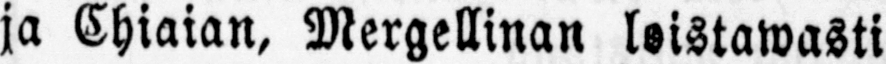ja Chiaian, Mergellinan loistawasti
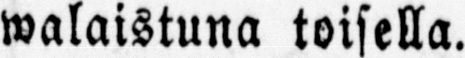walaistuna toisella.
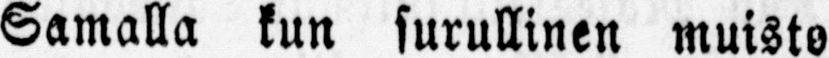Samalla kun surullinen muisto
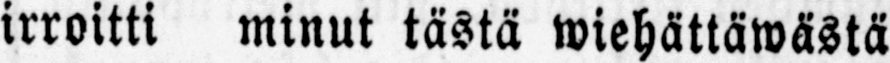irroitti minut tästä wiehättäwästä
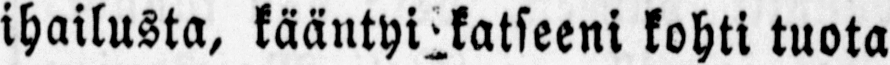ihailusta, kohti tuota
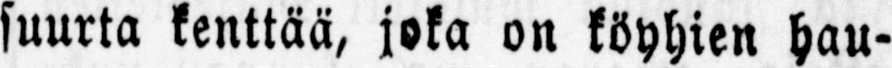suurta kenttää, joka on köyhien hau-
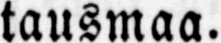tausmaa.
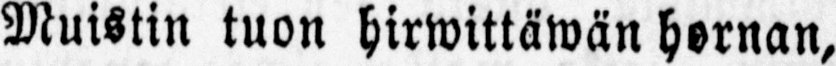Muistin tuon hirwittäwän hornan,
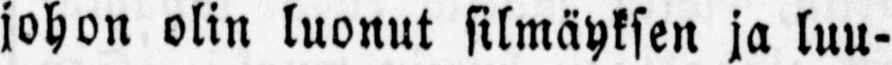johon olin luonut silmäyksen ja luu-
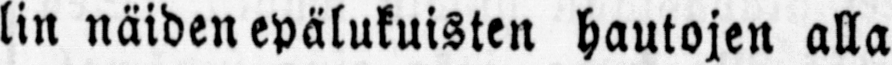lin näiden epälukuisten hautojen alla
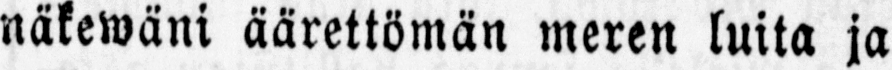näkewäni äärettömän meren luita ja
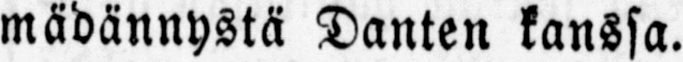mädännystä Danten kanssa.
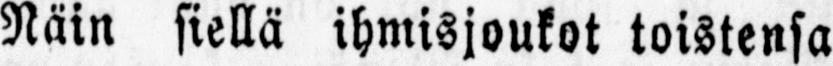Näin siellä ihmisjoukot toistensa
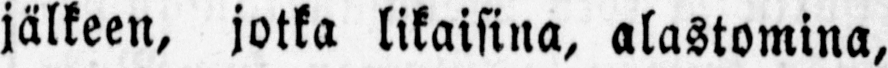jälkeen, jotka likaisina, alastomina,
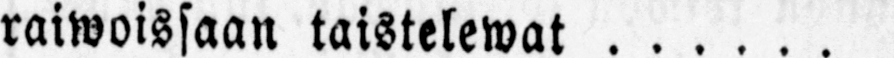raiwoissaan taistelewat . . . . . .
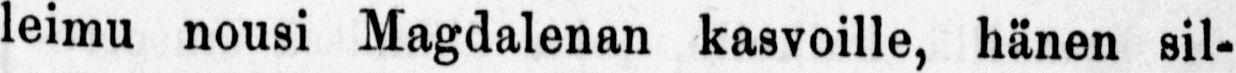leimu nousi Magdalenan kasvoille, hänen sil-
